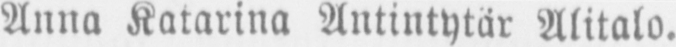Anna Katarina Antintytär Alitalo.
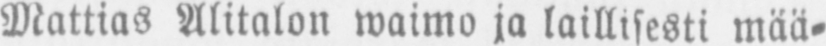Mattias Alitalon waimo ja laillisesti mää-
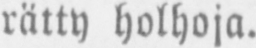rätty holhoja.
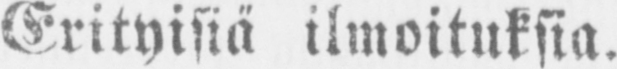Erityisiä ilmoituksia.
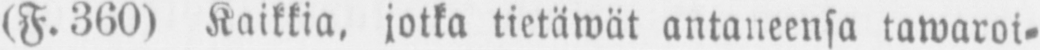(F.360) Kaikkia, jotka tietäwät antaneensa tawaroi-
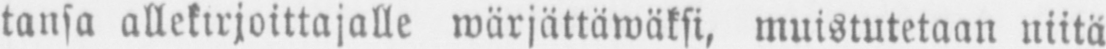tansa allekirjoittajalle wärjättäwäksi, muistutetaan niitä
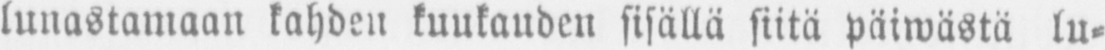lunastamaan kahden kuukauden sisällä siitä päiwästä lu-
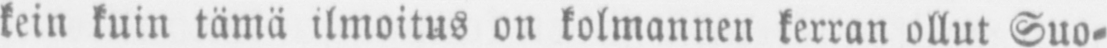kein kuin tämä ilmoitus on kolmannen kerran ollut Suo-
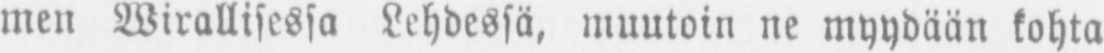men Virallisessa Lehdessä, muutoin ne myydään kohta
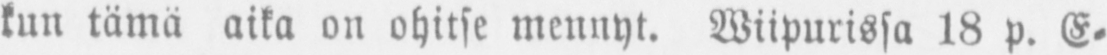kun tämä aika on ohitse mennyt. Viipurissa 18 p. E-
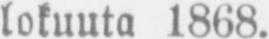lokuuta 1868.
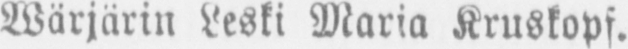Wärjärin Leski Maria Kruskopf.
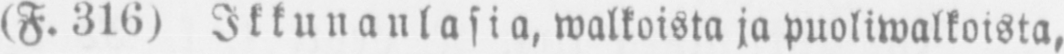(F. 316) Ikkunanlasia, walkoista ja puoliwalkoista,
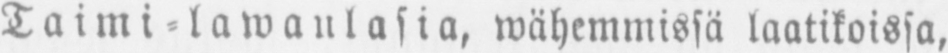Taimi-lawanlasia, wähemmissä laatikoissa,
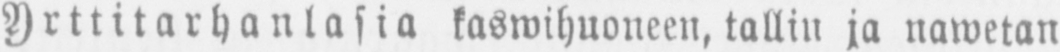Yrttitarhanlasia kaswihuoneen, tallin ja nawetan
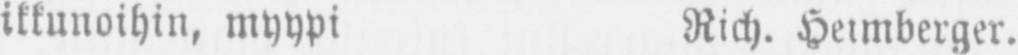ikkunoihin, myypi Rich. Heimberger.
